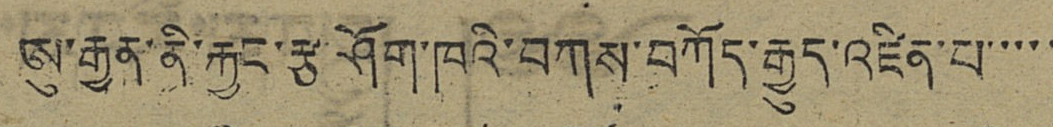ཨུ་རྒྱན་ནི་རྐྱང་རྩ་ཤོག་ཁའི་བཀས་བཀོད་རྒྱུད་འཛིན་པ་་་་་
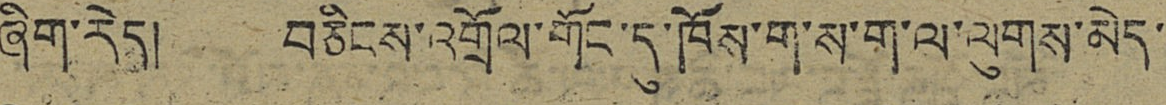ཞིག་རེད། བཅིངས་འགྲོལ་གོང་དུ་ཁོས་ག་ས་ག་ལ་ལུགས་མེད་
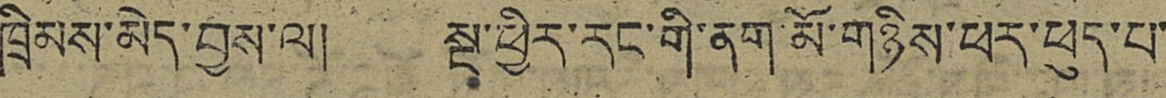ཁྲིམས་མེད་བྱས་ལ། སྔ་ཕྱིར་རང་གི་ནག་མོ་གཉིས་ཕར་ཕུད་པ་
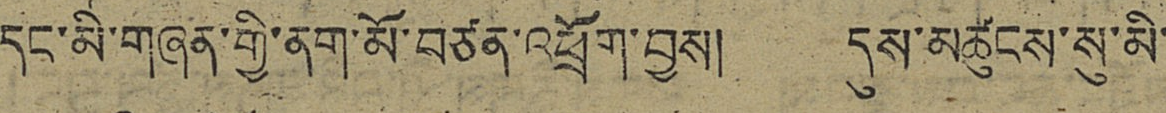དང་མི་གཞན་གྱི་ནག་མོ་བཙན་འཕྲོག་བྱས། དུས་མཚུངས་སུ་མི་
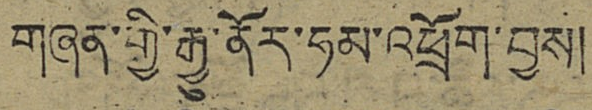གཞན་གྱི་རྒྱུ་ནོར་ཧམ་འཕྲོག་བྱས།
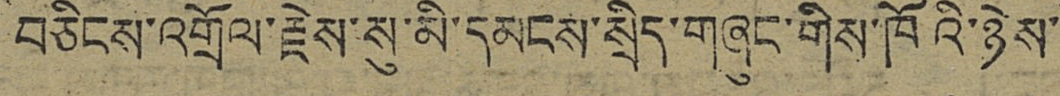བཅིངས་འགྲོལ་རྗེས་སུ་མི་དམངས་སྲིད་གཞུང་གིས་ཁོའི་ཉེས་
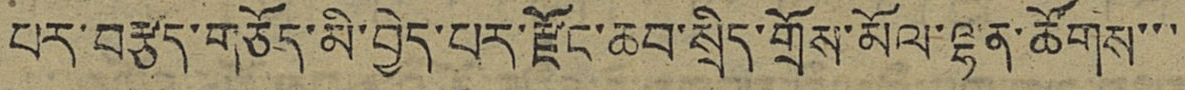པར་བརྩད་གཅོད་མི་བྱེད་པར་རྫོང་ཆབ་སྲིད་གྲོས་མོལ་ལྷན་ཚོགས་་་
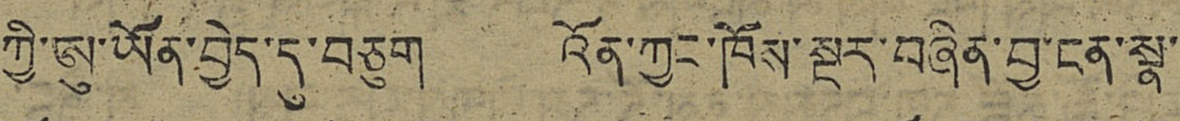ཀྱི་ཨུ་ཡོན་བྱེད་དུ་བཅུག འོན་ཀྱང་ཁོས་སྔར་བཞིན་བྱ་ངན་སྣ་
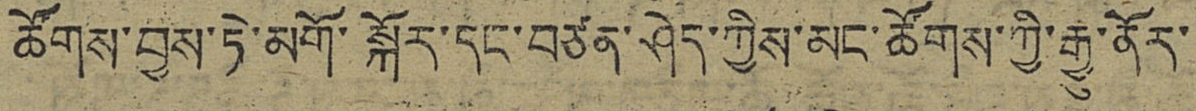ཚོགས་བྱས་ཏེ་མགོ་སྐོར་དང་བཙན་ཤེད་ཀྱིས་མང་ཚོགས་ཀྱི་རྒྱུ་ནོར་
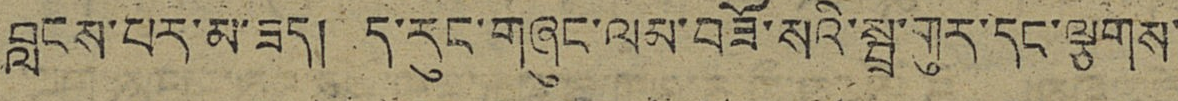བླངས་པར་མ་ཟད། ད་རུང་གཞུང་ལམ་བཟོ་སའི་སྦྲ་གུར་དང་ལྕགས་
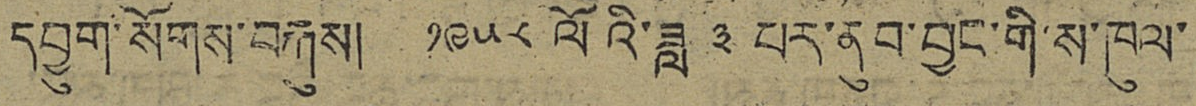དབྱུག་སོགས་བརྐུས། ༡༩༥༨ ལོའི་ཟླ ༣ པར་ནུབ་བྱང་གི་ས་ཁུལ་
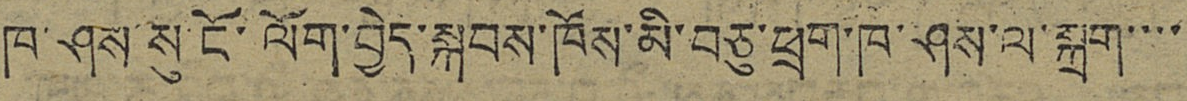ཁ་ཤས་སུ་ངོ་ལོག་བྱེད་སྐབས་ཁོས་མི་བཅུ་ཕྲག་ཁ་ཤས་ལ་སྐྲག་་་་
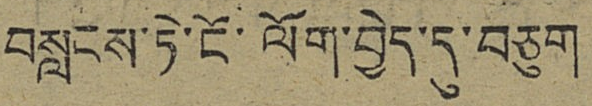བསླངས་ཏེ་ངོ་ལོག་བྱེད་དུ་བཅུག
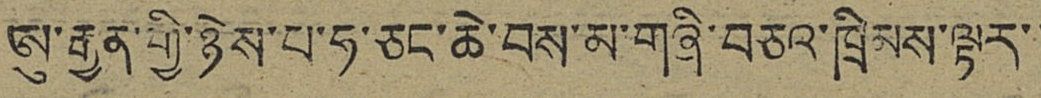ཨུ་རྒྱན་གྱི་ཉེས་པ་ཧ་ཅང་ཆེ་བས་མ་གཞི་བཅའ་ཁྲིམས་ལྟར་་
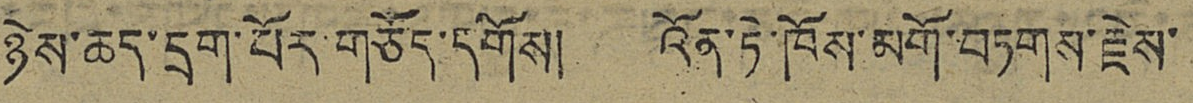ཉེས་ཆད་དྲག་པོར་གཅོད་དགོས། འོན་ཏེ་ཁོས་མགོ་བཏགས་རྗེས་
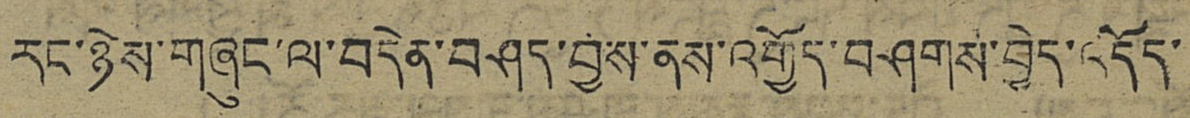རང་ཉེས་གཞུང་ལ་བདེན་བཤད་བྱས་ནས་འགྱོད་བཤགས་བྱེད་འདོད་
